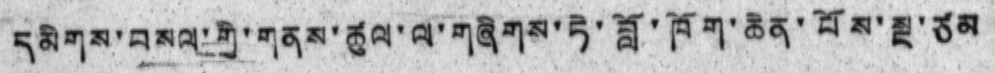དམིགས་བསལ་གྱི་གནས་ཚུལ་ལ་གཞིགས་ཏེ་བློ་ཁོག་ཆེན་པོས་སྔ་ཙམ
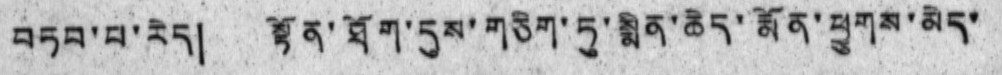བཏབ་བ་རེད། སྟོན་ཐོག་དུས་གཅིག་ཏུ་སྨིན་ཆེད་རྨོན་ཕྱུགས་མེད་
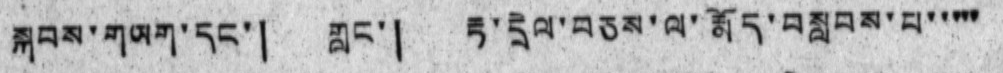སྐབས་གཡག་དང་། གླང་། རྟ་དྲེལ་བཅས་ལ་རྨོད་བསླབས་པ་་་་་
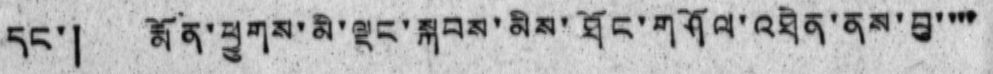དང་། རྨོན་ཕྱུགས་མི་ལྡང་སྐབས་མིས་ཐོང་གཤོལ་འཐེན་ནས་བྱ་་་་
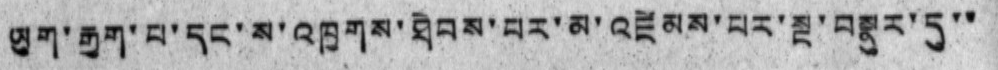ཡུག་རྒྱག་པ་དང་ས་འཁྱགས་ཐེབས་པར་མ་འཛེམས་པར་སྔ་བསྣུར་དུ་་
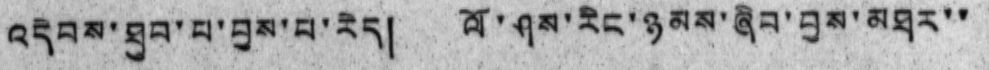འདེབས་ཐུབ་པ་བྱས་པ་རེད། ལོ་ཤས་རིང་ཉམས་ཞིབ་བྱས་མཐར་་
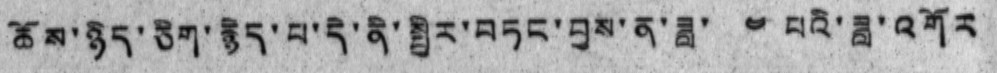ཆོས་ཉིད་ཅིག་རྙེད་པ་དེ་ནི་སྤྱིར་བཏང་བྱས་ན་ཟླ་ ༤ བའི་ཟླ་འགོར
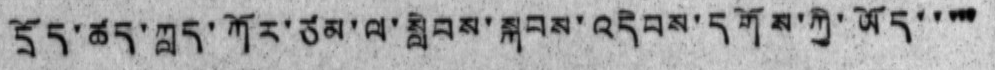དྲོད་ཚད་ཀླད་ཀོར་ཙམ་ལ་སླེབས་སྐབས་འདེབས་དགོས་ཀྱི་ཡོད་ ་་་་
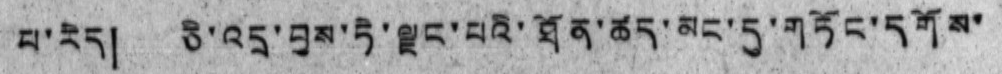པ་རེད། ཅི་འདྲ་བྱས་ཏེ་ལྗང་པའི་ཐོན་ཚད་མང་དུ་གཏོང་དགོས་
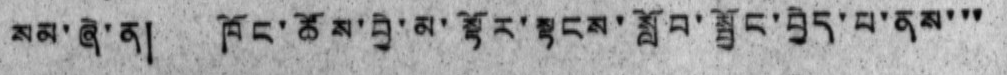སམ་ཞེ་ན། ཁོང་ཚོས་བྱེ་མ་སྟོར་སྟངས་སློབ་སྦྱོང་བྱེད་པ་ནས་་་
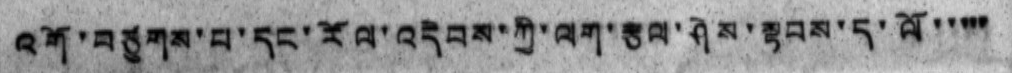འགོ་བཙུགས་པ་དང་རོལ་འདེབས་ཀྱི་ལག་རྩལ་ཤེས་སྟབས་ད་ལོ་་་་་
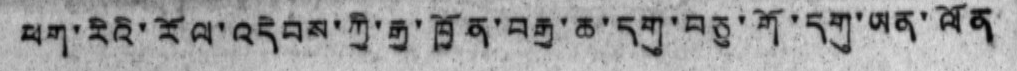ཕག་རིའི་རོལ་འདེབས་ཀྱི་རྒྱ་ཁྱོན་བརྒྱ་ཆ་དགུ་བཅུ་གོ་དགུ་ཡན་ལོན
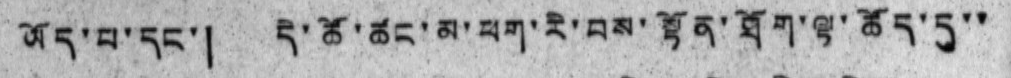ཡོད་པ་དང་། དེ་ཚོ་ཚང་མ་ཕག་རི་བས་སྟོན་ཐོག་ལྟ་ཚོད་དུ་་
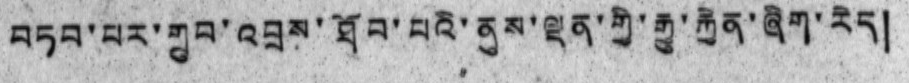བཏབ་པར་གྲུབ་འབྲུས་ཐོབ་པའི་ནུས་ལྡན་གྱི་རྒྱུ་རྐྱེན་ཞིག་རེད།
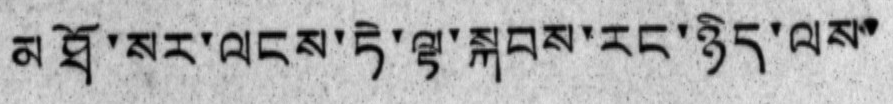མཐོ་སར་ལངས་ཏེ་ལྟ་སྐབས་རང་ཉིད་ལས་
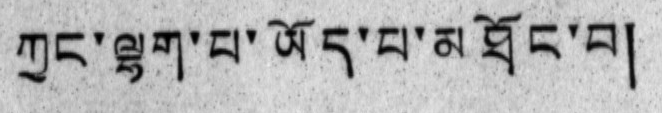ཀྱང་ལྷག་པ་ཡོད་པ་མཐོང་བ།
